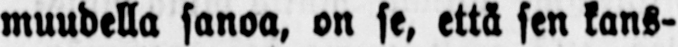muudella sanoa, on se, että sen kans-
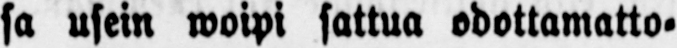sa usein woipi sattua odottamatto-
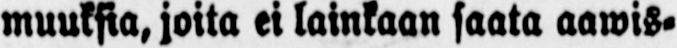muuksia, joita ei lainkaan saata aawis-
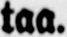taa.
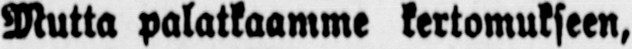Mutta palatkaamme kertomukseen,
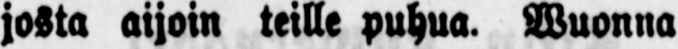josta aijoin teille puhua. Wuonna
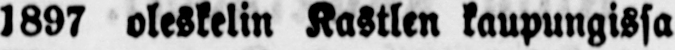1897 oleskelin Kastlen kaupungissa
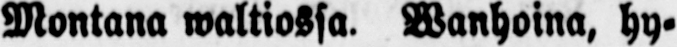Montana waltiossa. Wanhoina, hy-
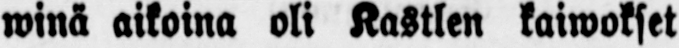winä aikoina oli Kastlen kaiwokset
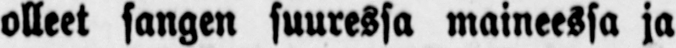olleet sangen suuressa maineessa ja
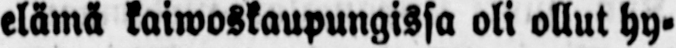elämä kaiwoskaupungissa oli ollut hy-
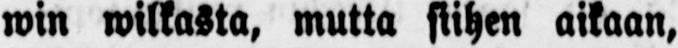win wilkasta, mutta siihen aikaan,
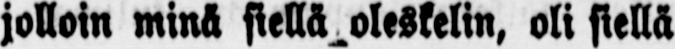jolloin minä siellä oleskelin, oli siellä
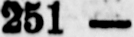251
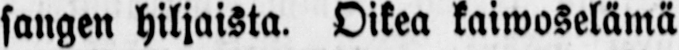sangen hiljaista. Oikea kaiwoselämä
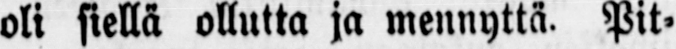oli siellä ollutta ja mennyttä. Pit-
